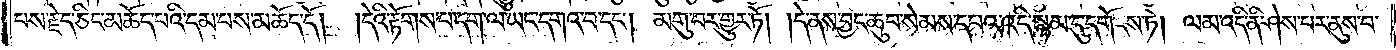པས་རྗེད་ཅིང་མཆོད་པའི་དམ་པས་མཆོད་དོ། །དེའི་རྟོགས་པ་དག་ལ་ཡང་དགའ་བ་དང༌། མགུ་པར་གྱུར་ཏོ། །དེ་ནས་བྱང་ཆུབ་སེམས་དཔའ་འདི་སྙམ་དུ་དགོངས་ཏེ། ལམ་འདི་ནི་ཤེས་པར་ནུས་པ་
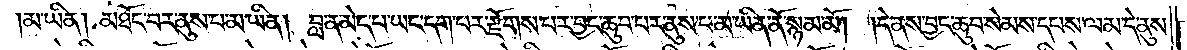མ་ཡིན། མཐོང་བར་ནུས་པ་མ་ཡིན། བླ་ན་མེད་པ་ཡང་དག་པར་རྫོགས་པར་བྱང་ཆུབ་པར་ནུས་པ་མ་ཡིན་ནོ་སྙམ་མོ། །དེ་ནས་བྱང་ཆུབ་སེམས་དཔས་ལམ་དེ་ནུས་
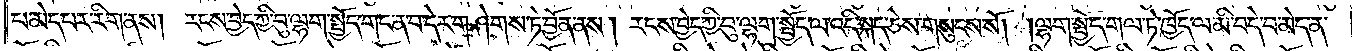པ་མེད་པར་རིག་ནས། རངས་བྱེད་ཀྱི་བུ་ལྷག་སྤྱོད་གང་ན་བ་དེར་གཤེགས་ཏེ་བྱོན་ནས། རངས་བྱེད་ཀྱི་བུ་ལྷག་སྤྱོད་ལ་འདི་སྐད་ཅེས་གསུངས་སོ། །ལྷག་སྤྱོད་གལ་ཏེ་ཁྱོད་ལ་མི་བདེ་བ་མེད་ན་
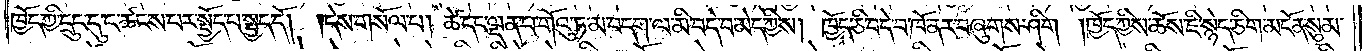ཁྱོད་ཀྱི་དྲུང་དུ་ང་ཚངས་པར་སྤྱོད་པ་སྤྱད་དོ། །དེས་གསོལ་པ། ཚེ་དང་ལྡན་པ་གོའུ་ཏ་མ་བདག་ལ་མི་བདེ་བ་མེད་ཀྱིས། ཁྱོད་ཅི་བདེ་བ་ཁོ་ནར་བཞུགས་ཤིག །ཁྱོད་ཀྱིས་ཆོས་ཇི་སྙེད་ཅིག་མངོན་སུམ་
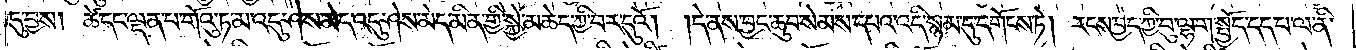དུ་བྱས། ཚེ་དང་ལྡན་པ་གོའུ་ཏ་མ་འདུ་ཤེས་མེད་འདུ་ཤེས་མེད་མིན་གྱི་སྐྱེ་མཆེད་ཀྱི་བར་དུའོ། །དེ་ནས་བྱང་ཆུབ་སེམས་དཔའ་འདི་སྙམ་དུ་དགོངས་ཏེ། རངས་བྱེད་ཀྱི་བུ་ལྷག་སྤྱོད་དད་པ་ལ་ནི་
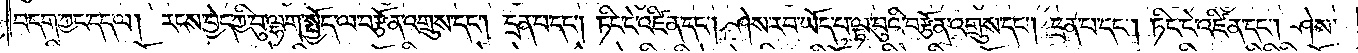བདག་ཀྱང་དད་ལ། རངས་བྱེད་ཀྱི་བུ་ལྷག་སྤྱོད་ལ་བརྩོན་འགྲུས་དང༌། དྲན་པ་དང༌། ཏིང་ངེ་འཛིན་དང༌། ཤེས་རབ་ཡོད་པ་ལྟ་བུའི་བརྩོན་འགྲུས་དང༌། དྲན་པ་དང༌། ཏིང་ངེ་འཛིན་དང༌། ཤེས་
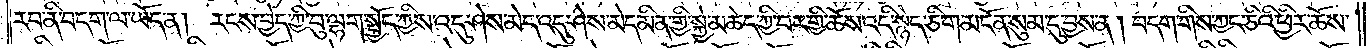རབ་ནི་བདག་ལ་ཡོད་ན། རངས་བྱེད་ཀྱི་བུ་ལྷག་སྤྱོད་ཀྱིས་འདུ་ཤེས་མེད་འདུ་ཤེས་མེད་མིན་གྱི་སྐྱེ་མཆེད་ཀྱི་བར་གྱི་ཆོས་འདི་སྙེད་ཅིག་མངོན་སུམ་དུ་བྱས་ན། བདག་གིས་ཀྱང་ཅིའི་ཕྱིར་ཆོས་
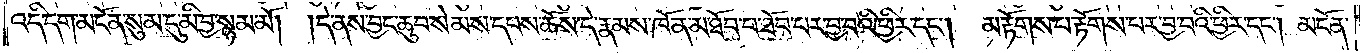འདི་དག་མངོན་སུམ་དུ་མི་བྱ་སྙམ་མོ། །དེ་ནས་བྱང་ཆུབ་སེམས་དཔས་ཆོས་དེ་རྣམས་ཁོ་ན་མ་ཐོབ་པ་ཐོབ་པར་བྱ་བའི་ཕྱིར་དང༌། མ་རྟོགས་པ་རྟོགས་པར་བྱ་བའི་ཕྱིར་དང༌། མངོན་
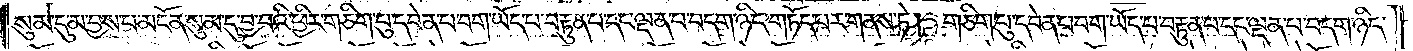སུམ་དུ་མ་བྱས་པ་མངོན་སུམ་དུ་བྱ་བའི་ཕྱིར་གཅིག་པུ་དབེན་པ་བག་ཡོད་པ་བརྟུན་པ་དང་ལྡན་པ་བདག་ཉིད་གཏོད་པར་གནས་ཏེ། གཅིག་པུ་དབེན་པ་བག་ཡོད་པ་བརྟུན་པ་དང་ལྡན་པ་བདག་ཉིད་
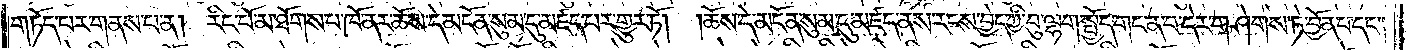གཏོད་པར་གནས་པ་ན། རིང་པོ་མ་ཐོགས་པ་ཁོ་ནར་ཆོས་དེ་མངོན་སུམ་དུ་མཛད་པར་གྱུར་ཏོ། །ཆོས་དེ་མངོན་སུམ་དུ་མཛད་ནས་རངས་བྱེད་ཀྱི་བུ་ལྷག་སྤྱོད་གང་ན་བ་དེར་གཤེགས་ཏེ་བྱོན་པ་དང༌།
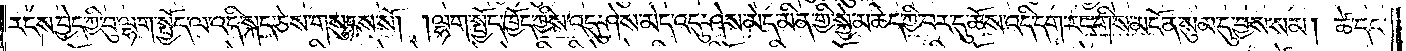རངས་བྱེད་ཀྱི་བུ་ལྷག་སྤྱོད་ལ་འདི་སྐད་ཅེས་གསུངས་སོ། །ལྷག་སྤྱོད་ཁྱོད་ཀྱིས་འདུ་ཤེས་མེད་འདུ་ཤེས་མེད་མིན་གྱི་སྐྱེ་མཆེད་ཀྱི་བར་དུ་ཆོས་འདི་དག་རང་གིས་མངོན་སུམ་དུ་བྱས་སམ། ཚེ་དང་
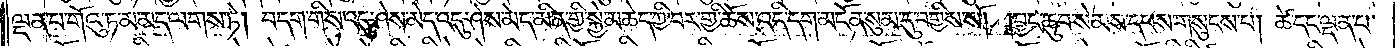ལྡན་པ་གོའུ་ཏ་མ་མད་ལགས་ཏེ། བདག་གིས་འདུ་ཤེས་མེད་འདུ་ཤེས་མེད་མིན་གྱི་སྐྱེ་མཆེད་ཀྱི་བར་གྱི་ཆོས་འདི་དག་མངོན་སུམ་དུ་བགྱིས་སོ། །བྱང་ཆུབ་སེམས་དཔས་གསུངས་པ། ཚེ་དང་ལྡན་པ་
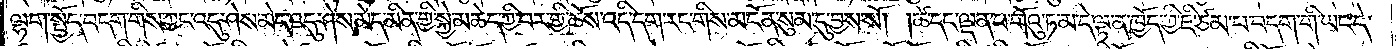ལྷག་སྤྱོད་བདག་གིས་ཀྱང་འདུ་ཤེས་མེད་འདུ་ཤེས་མེད་མིན་གྱི་སྐྱེ་མཆེད་ཀྱི་བར་གྱི་ཆོས་འདི་དག་རང་གིས་མངོན་སུམ་དུ་བྱས་སོ། །ཚེ་དང་ལྡན་པ་གོའུ་ཏ་མ་དེ་ལྟ་ན་ཁྱོད་ཀྱི་ཇི་ཙམ་པ་བདག་གི་ཡང་དེ་
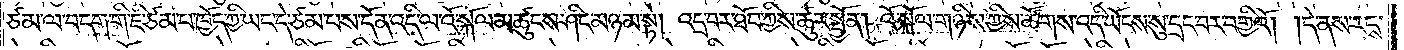ཙམ་ལ་བདག་གི་ཇི་ཙམ་པ་ཁྱོད་ཀྱི་ཡང་དེ་ཙམ་པས་དོན་འདི་ལ་འོ་སྐོལ་མཚུངས་ཤིང་མཉམ་སྟེ། འདྲ་བར་ཐོབ་ཀྱིས་ཚུར་སྤྱོན། འོ་སྐོལ་གཉིས་ཀྱིས་ཚོགས་འདི་ཡོངས་སུ་དྲང་བར་བགྱིའོ། །དེ་ནས་རངས་
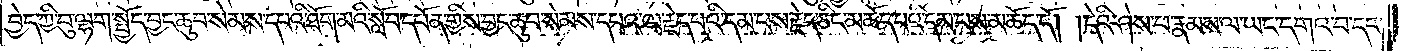བྱེད་ཀྱི་བུ་ལྷག་སྤྱོད་བྱང་ཆུབ་སེམས་དཔའི་ཐོག་མའི་སློབ་དཔོན་གྱིས་བྱང་ཆུབ་སེམས་དཔའ་ལ་རྗེད་པའི་དམ་པས་རྗེད་ཅིང་མཆོད་པའི་དམ་པས་མཆོད་དོ། །དེའི་ཤེས་པ་རྣམས་ལ་ཡང་དགའ་བ་དང་
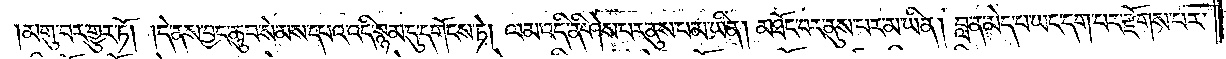།མགུ་བར་གྱུར་ཏོ། །དེ་ནས་བྱང་ཆུབ་སེམས་དཔའ་འདི་སྙམ་དུ་དགོངས་ཏེ། ལམ་འདི་ནི་ཤེས་པར་ནུས་པ་མ་ཡིན། མཐོང་བར་ནུས་པར་མ་ཡིན། བླ་ན་མེད་པ་ཡང་དག་པར་རྫོགས་པར་
